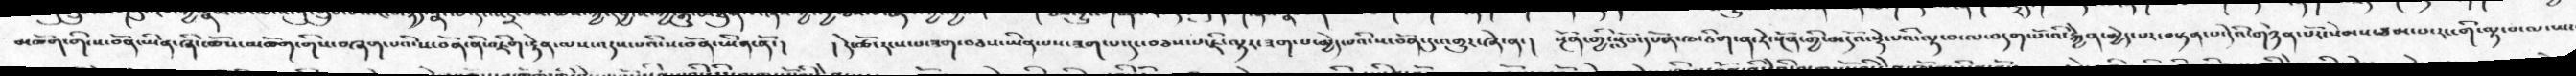མཆོག་གི་ས་བོན་ཡིན་ཞིང་ཆོས་མཆོག་གིས་བཞག་པའི་ས་བོན་ནི་འཇིག་རྟེན་ལས་འདས་པའི་ས་བོན་ཡིན་ནོ་།    །དེ་ཚོ་རངས་པ་ཟག་བཅས་ཡིན་པས་ཟག་པ་དང་བཅས་པ་ཇི་ལྟར་ཟག་པ་མྱེད་པའི་ས་བོན་དུ་འགྱུར་ཞེ་ན་།   སྔོན་གྱི་སློབ་དཔོན་ཁ་ཅིག་ན་རེ་སྔོན་གྱི་མདོའ་སྡེ་པའི་ལྟ་བ་ལ་བདག་པོ་འི་རྐྱེན་མྱེད་པར་བསྟན་པ་དེའི་གཉེན་པོར་སེམས་ཙམ་པ་རང་གི་ལྟ་བ་ལ་ཡང
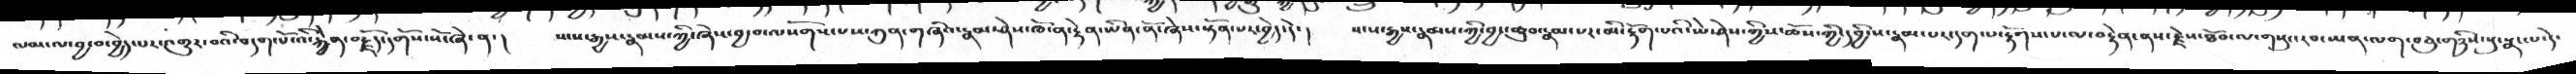ལམ་ལ་བྱ་བ་བྱེད་པར་འགྱུར་བའི་བདག་པོ་འི་རྐྱེན་བརྗོད་དགོས་སོ་ཞེ་ན་།    སངས་རྒྱས་རྣམས་ཀྱི་ཞེས་བྱ་བ་ལསོགས་པས་ཀུན་གཞིའི་རྣམ་ཤེས་ཁོ་ན་རྟེན་ཡིན་ནོ་ཞེས་སྟོན་པར་བྱེད་དེ་།    སངས་རྒྱས་རྣམས་ཀྱི་བྱང་ཆུབ་རྣམ་པར་མི་རྟོག་པའི་ཡེ་ཤེས་ཀྱིས་ཆོས་ཀྱི་དབྱིངས་རྣམ་པར་དག་པ་རྟོགས་པ་ལ་བརྟེན་ནས་རྗེས་ཐོབ་ལ་གསུང་རབ་ཡན་ལག་བཅུ་གཉིས་སུ་སྣང་ལ་དེ་
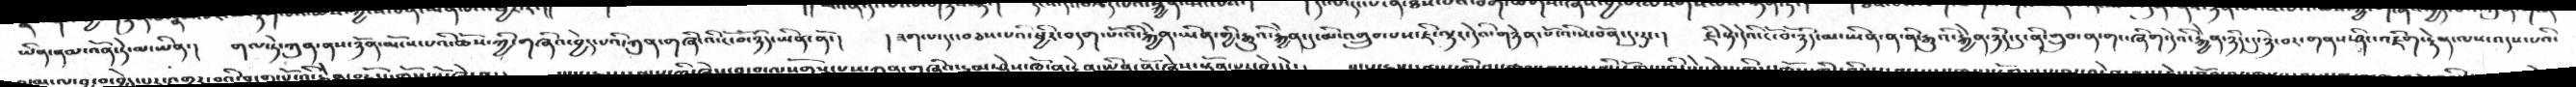ཡིན་ནམ་འོན་ཏེ་མ་ཡིན་།   གལ་ཏེ་ཀུན་ནས་ཉོན་མོངས་པའི་ཆོས་ཀྱི་གཞིའ་བྱེད་པའི་ཀུན་གཞི་འི་ངོ་བོ་ཉིད་ཡིན་ནོ་།  །ཟག་པ་དང་བཅས་པའི་ཕྱིར་བདག་པོ་འི་རྐྱེན་ཡིན་གྱི་རྒྱུའི་རྐྱེན་དུ་མི་འགྲུབ་པས་ཇི་ལྟར་དེའི་གཉེན་པོ་འི་ས་བོན་དུ་རུང་།   ཇི་སྟེ་དེའི་ངོ་བོ་ཉིད་མ་ཡིན་ན་ནི་རྒྱུའི་རྐྱེན་ཉིད་དུ་ནི་གྲུབ་ན་གང་ཞིག་དེའི་རྐྱེན་ཉིད་དུ་ཉེ་བར་གནས་ཤིང་འཇིག་རྟེན་ལས་འདས་པའི་
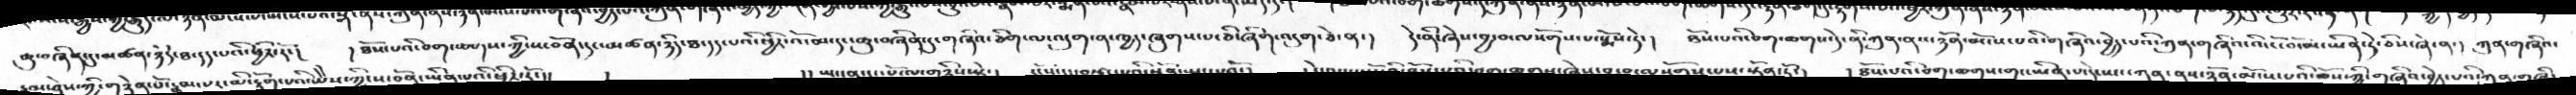ཆུ་བཞིན་དུ་མཚན་ཉིད་ཐ་དད་པའི་ཕྱིར་རོ་།   །ཐོས་པའི་བག་ཆགས་ཀྱི་ས་བོན་དང་མཚན་ཉིད་ཐ་དད་པའི་ཕྱིར་འོ་མ་དང་ཆུ་བཞིན་དུ་གཞིའ་ཅིག་ལ་འདུག་ན་ཁྱད་ཞུགས་པ་ཅི་ཞིག་འདུག་ཅེ་ན་།   དེ་ནི་ཞེས་བྱ་བ་ལསོགས་པ་སྨོས་ཏེ་།   ནོས་པའི་བག་ཆགས་དེ་ནི་ཀུན་ནས་ཉོན་མོངས་པའི་གཞིའ་བྱེད་པའི་ཀུན་གཞིའ་འི་ངོ་བོ་མ་ཡིན་ཏེ་ཅིས་ཞེ་ན་།   ཀུན་གཞིའ་
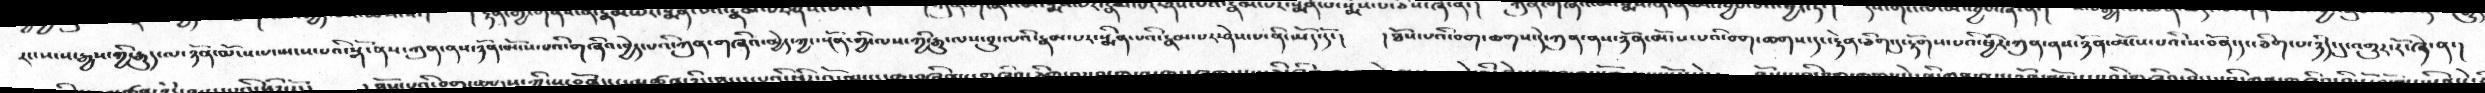རང་སངས་རྒྱས་ཀྱི་རྒྱུད་ལ་ཉོན་མོངས་པ་སྤངས་པའི་སྒོ་ནས་ཀུན་ནས་ཉོན་མོངས་པའི་གཞིའ་བྱེད་པའི་ཀུན་གཞིའ་མྱེད་ཀྱང་སྔོན་གྱི་ལས་ཀྱི་རྒྱུ་ལས་བྱུང་པའི་རྣམ་པར་སྨིན་པའི་རྣམ་པར་ཤེས་པ་ནི་ཡོད་དོ་།   །ཐོས་པའི་བག་ཆགས་དེ་ཀུན་ནས་ཉོན་མོངས་པའི་བག་ཆགས་དང་རྟེན་ཅིག་དུ་རྟོགས་པའི་ཕྱིར་ཀུན་ནས་ཉོན་མོངས་པའི་ས་བོན་དང་ཅིག་པ་ཉིད་དུ་འགྱུར་རོ་ཞེ་ན་།
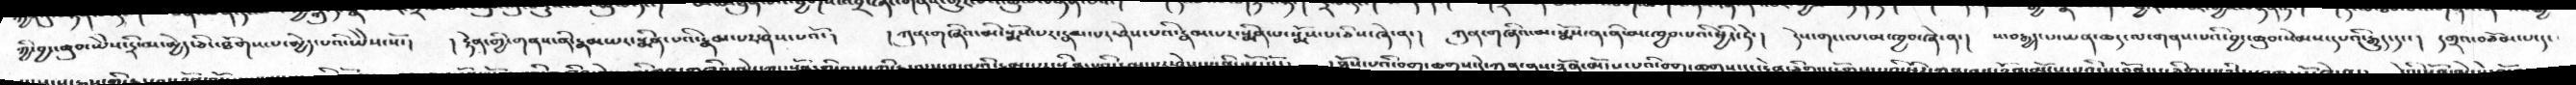་ཀྱི་བྱང་ཆུབ་ཡཻས་དྲི་མ་མྱེད་ཅིང་ཐོགས་པ་མྱེད་པའི་ཡཻས་སོ་།  །རྟེན་གྱི་གནས་ནི་རྣམ་པར་སྨིན་པའི་རྣམ་པར་ཤེས་པའོ་།   །ཀུན་གཞིའ་མི་སྨོས་པར་རྣམ་པར་ཤེས་པའི་རྣམ་པར་སྨིན་པ་སྨོས་པ་ཅིས་ཞེ་ན་།   ཀུན་གཞིའ་མ་སྨོས་ན་ནི་མ་ཁྱབ་པའི་ཕྱིར་ཏེ་།   དེས་གང་ལ་མ་ཁྱབ་ཞེ་ན་།   ས་བརྒྱད་པ་ཡན་ཆད་ལ་གནས་པའི་བྱང་ཆུབ་སེམས་དཔའི་རྒྱུད་དང་།  དགྲའ་བཅོམ་པ་དང་
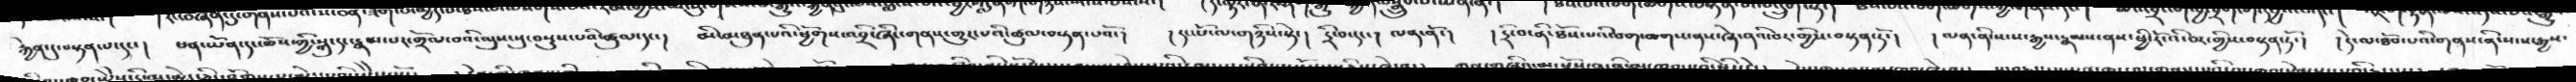རྐྱེན་དུ་བསྟན་པ་དང་།  ཕན་ཡོན་དང་ཆོས་ཀྱི་སྐུ་དང་རྣམ་པར་གྲོལ་བའི་ལུས་སུ་བསྡུས་པའི་ཚུལ་དང་།   མི་མཐུན་པའི་ཕྱོགས་འབྲི་ཞིང་གནས་གྱུར་པའི་ཚུལ་བསྟན་པའོ་།   །དང་པོ་ལ་གཉིས་སྟེ་།  དྲི་བ་དང་།  ལན་ནོ་།  །དྲི་བ་ནི་ཐོས་པའི་བག་ཆགས་ནས་ཞེ་ནའི་བར་གྱིས་བསྟན་ཏོ་།   །ལན་ནི་སངས་རྒྱས་རྣམས་ནས་ཕྱི་རོ་འི་བར་གྱིས་བསྟན་ཏོ་།   །དེ་ལ་ཐོབ་པའི་གནས་ནི་སངས་རྒྱས་
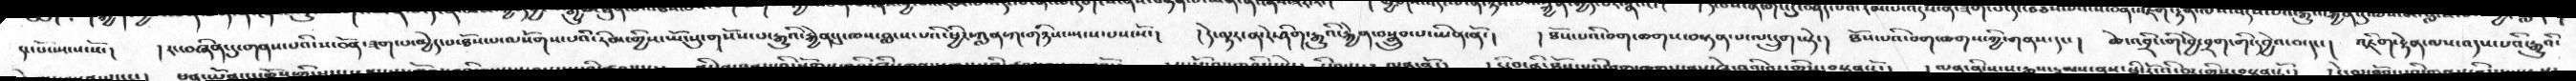དང་པོ་སྤངས་སོ་།    །རང་བཞིན་དུ་གནས་པའི་ས་བོན་ཟག་པ་མྱེད་པ་ཐོས་པ་ལསོགས་པའི་རིམ་གྱིས་ཡོངསུ་གསོས་པ་རྒྱུའི་རྐྱེན་དུ་ཁས་བླངས་པའི་ཕྱིར་ཀླན་ཀ་གཉིས་སྤངས་པས་སོ་།    །དེ་ལྟར་ན་རེ་ཤིག་རྒྱུའི་རྐྱེན་བསྒྲུབ་པ་ཡིན་ནོ་།    ། ཐོས་པའི་བག་ཆགས་བསྟན་པ་ལ་དྲུག་སྟེ་།  ཐོས་པའི་བག་ཆགས་ཀྱི་གནས་དང་།   ཆེ་འབྲིང་གི་བྱེ་བྲག་གི་དབྱེའ་བ་དང་།  འཇིག་རྟེན་ལས་འདས་པའི་རྒྱུའི་
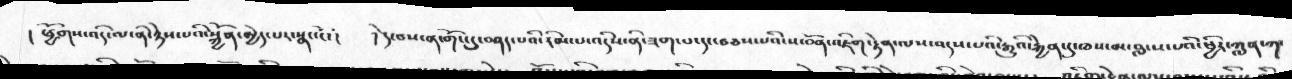།  ཕྱོགས་འདི་ལ་ནི་ཉེས་པའི་སྐྱོན་མྱེད་པར་སྣང་ངོ་།   །དེ་བས་ན་གོང་དུ་བཤད་པའི་རིམ་པ་འདིས་ནི་ཟག་པ་དང་བཅས་པའི་ས་བོན་འཇིག་རྟེན་ལས་འདས་པའི་རྒྱུའི་རྐྱེན་དུ་ཁས་མ་བླངས་པའི་ཕྱིར་ཀླན་ཀ་
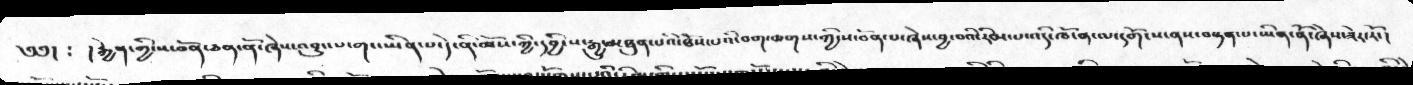༄༅།  ༴ །རྐྱེན་གྱི་ས་བོན་ཅན་ནོ་ཞེས་འབྱུང་པ་གང་ཡིན་པ་དེ་ནི་ཆོས་ཀྱི་དབྱིངས་རྒྱུ་མཐུན་པའི་ཐོས་པའི་བག་ཆགས་ཀྱི་ས་བོན་པ་ཞེས་བྱ་བའི་རིམ་པ་འདི་ཁོ་ན་ལ་དགོངས་ནས་བསྟན་པ་ཡིན་ནོ་ཞེས་ཟེར་རོ་།
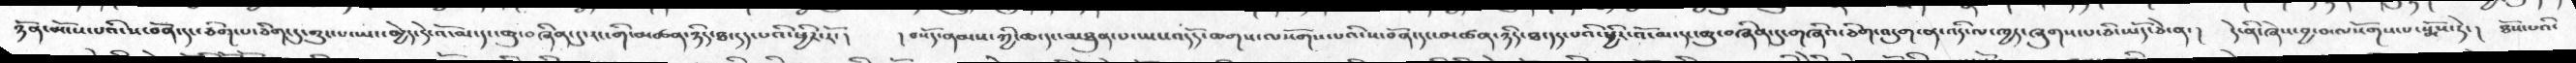ཉོན་མོངས་པའི་ས་བོན་དང་ཅིག་པ་ཅིག་དུ་གྱུར་པ་ཡང་མྱེད་དེ་འོ་མ་དང་ཆུ་བཞིན་དུ་རང་གི་མཚན་ཉིད་ཐ་དད་པའི་ཕྱིར་རོ་།   །བསོད་ནམས་ཀྱི་ཆ་དང་མཐུན་པ་ཡང་འདོད་ཆགས་ལསོགས་པའི་ས་བོན་དང་མཚན་ཉིད་ཐ་དད་པའི་ཕྱིར་འོ་མ་དང་ཆུ་བཞིན་དུ་གཞིའ་ཅིག་འདུག་ན་འདི་ལ་ཁྱད་ཞུགས་པ་ཅི་ཡོད་ཅེ་ན་།   དེ་ནི་ཞེས་བྱ་བ་ལསོགས་པ་སྨོས་ཏེ་།  ཐོས་པའི་
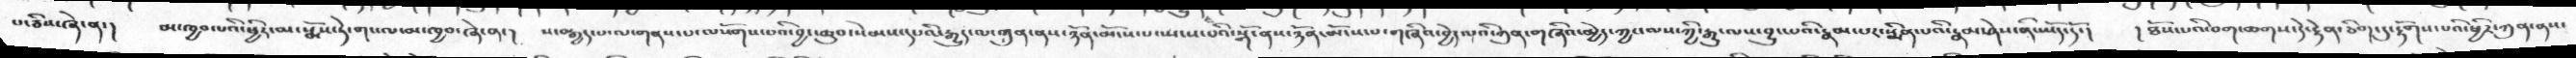པ་ཅིས་ཞེ་ན་།   མ་ཁྱབ་པའི་ཕྱིར་མ་སྨོས་ཏེ་གང་ལ་མ་ཁྱབ་ཞེ་ན་།   ས་བརྒྱད་པ་ལ་གནས་པ་ལསོགས་པའི་བྱང་ཆུབ་སེམས་དཔའི་རྒྱུད་ལ་ཀུན་ནས་ཉོན་མོངས་པ་སྤངས་པའི་སྒོ་ནས་ཉོན་མོངས་པ་གཞིའ་བྱེད་པའི་ཀུན་གཞིའ་མྱེད་ཀྱང་ལས་ཀྱི་རྒྱུ་ལས་བྱུང་པའི་རྣམ་པར་སྨིན་པའི་རྣམ་ཤེས་ནི་ཡོད་དོ་།   །ཐོས་པའི་བག་ཆགས་དེ་རྟེན་ཅིག་དུ་རྟོགས་པའི་ཕྱིར་ཀུན་ནས་
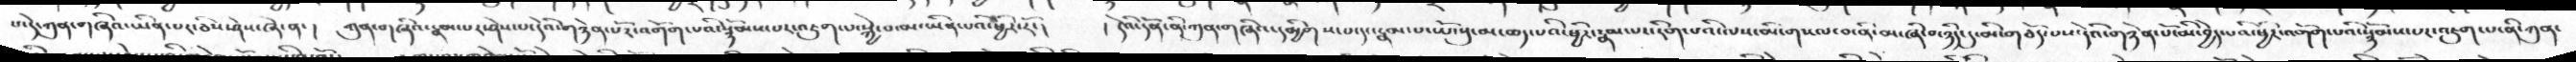པ་དེ་ཀུན་གཞིའ་ཡིན་པར་ཅིས་ཤེས་ཞེ་ན་།   ཀུན་གཞིའ་རྣམ་པར་ཤེས་པ་དེའི་གཉེན་པོར་འགོག་པའི་སྙོམས་པར་འཇུག་པ་སྐྱེ་བ་མ་ཡིན་པའི་ཕྱིར་རོ་།   །དེའི་དོན་ནི་ཀུན་གཞིའ་དམྱིགས་པ་དང་རྣམ་པ་ཡོངསུ་མ་ཆད་པའི་ཕྱིར་རྣམ་པར་རིག་པའི་ལས་མི་གསལ་བ་ནི་མ་ཞི་བ་ཉིད་དུ་མི་གཅོད་པས་དེའི་གཉེན་པོ་མི་བྱེད་པའི་ཕྱིར་འགོག་པའི་སྙོམས་པར་འཇུག་པ་ནི་ཀུན་
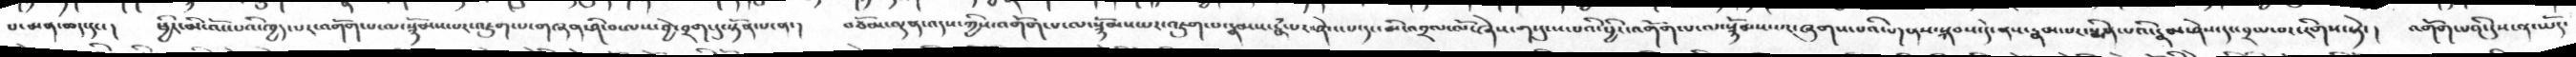པ་མན་ཆད་དང་།  ཕྱིར་མི་འོང་པའི་ཁྱད་པར་འགོག་པ་ལ་སྙོམས་པར་འཇུག་པ་གཞན་ཤི་བ་ལས་བྱེ་བྲག་ཏུ་སྟོན་པ་ན་།   བཅོམ་ལྡན་འདས་ཀྱིས་འགོག་པ་ལ་སྙོམས་པར་འཇུག་པ་རྣམས་རྣམ་པར་ཤེས་པ་དང་མི་འབྲལ་ལོ་ཞེས་གསུངས་པའི་ཕྱིར་འགོག་པ་ལ་སྙོམས་པར་ཞུགས་པའི་གནས་སྐབས་དེ་ནས་རྣམ་པར་སྨིན་པའི་རྣམ་ཤེས་དང་བྲལ་བར་རིགས་སྟེ་།  འགོག་པའི་དུས་ན་ཡོད་
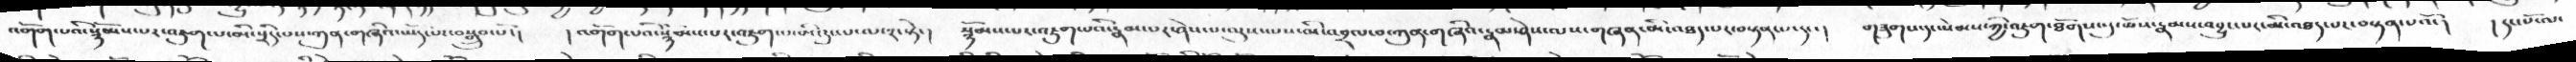འགོག་པའི་སྙོམས་པར་འཇུག་པ་མི་སྲིད་པས་ཀུན་གཞིའ་ཡོད་པར་བསྒྲུབ་པོ་།  །འགོག་པའི་སྙོམས་པར་འཇུག་པ་མི་རུང་པ་ལ་༢་སྟེ་།  སྙོམས་པར་འཇུག་པའི་རྣམ་པར་ཤེས་པ་་ལུས་ལས་མི་འབྲལ་བ་ཀུན་གཞིའ་རྣམ་ཤེས་ལས་གཞན་མི་འཐད་པར་བསྟན་པ་དང་།   གཟུགས་དང་སེམས་ཀྱི་འཇུག་ཐོགས་སུ་ཆོས་རྣམས་འབྱུང་པར་མི་འཐད་པར་བསྟན་པའོ་།  །དང་པོ་ལ་
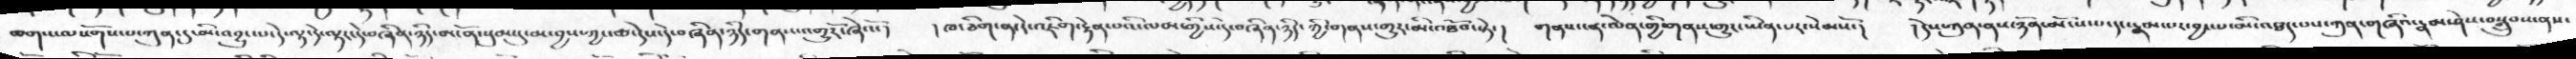ཆགས་ལསོགས་པ་ཀུན་དུ་མི་འབྱུང་པ་དེ་ལྟར་དེ་བཞིན་ཉིད་མངོན་སུམ་དུ་མ་བྱས་ཀྱང་ཆ་དེས་དེ་བཞིན་ཉིད་གནས་འགྱུརོ་ཞེའོ་།  །ཁ་ཅིག་ན་རེ་འཇིག་རྟེན་པའི་ལམ་གྱིས་དེ་བཞིན་ཉིད་ཀྱི་གནས་གྱུར་མི་འཐོབ་སྟེ་།   གནས་ངན་ལེན་གྱི་གནས་གྱུར་ཡིན་པར་སེམསོ་།  །དེས་ཀུན་ནས་ཉོན་མོངས་པ་དང་རྣམ་པར་བྱང་པ་མི་འཐད་པས་ཀུན་གཞིའ་རྣམ་ཤེས་བསྒྲུབས་ནས་
